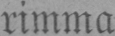rimmll
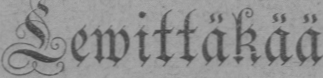Lewittäkää
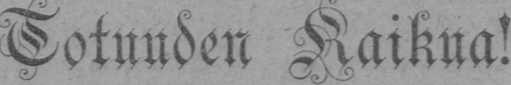Totuuden Kaikua!
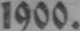1900.
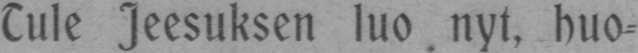Tule Jeesuksen luo nyt, huo-
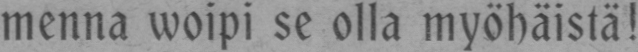menna woipi se olla myöhäistä!
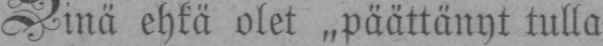Sinä ehkä olet „päättänyt tulla
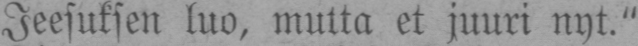Jeesuksen luo, mutta et juuri nyt."
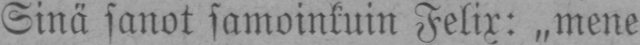Sinä sanot samoinkuin Felix: „mene
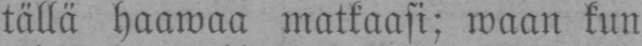tällä haawaa matkaasi; waan kun
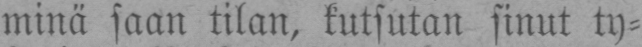minä saan tilan, kutsutan sinut ty-
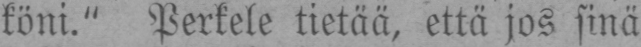köni." Perkele tietää, että jos sinä
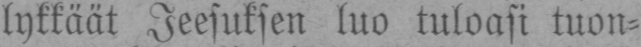lykkäät Jeesuksen luo tuloasi tuon-
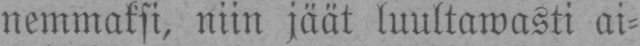nemmaksi, niin jäät luultawasti ai-
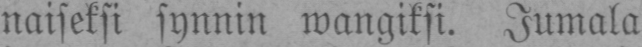naiseksi synnin wangiksi. Jumala
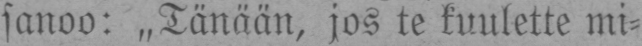sanoo: „Tänään, jos te kuulette mi-
